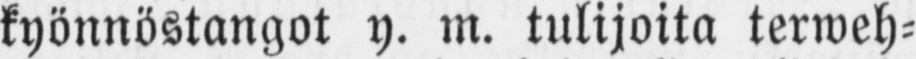kyönnöstangot y. m. tulijoita terweh-
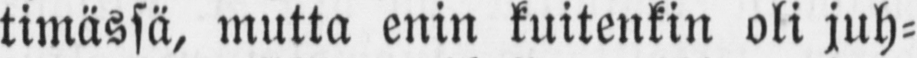timässä, mutta enin kuitenkin oli juh-
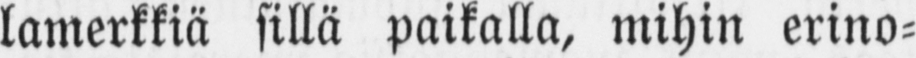lamerkkiä sillä paikalla, mihin erino-
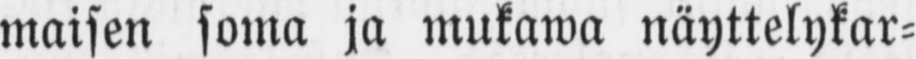maisen soma ja mukawa näyttelykar-
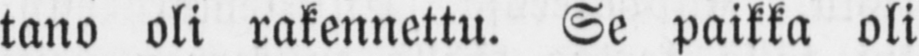tano oli rakennettu. Se paikka oli
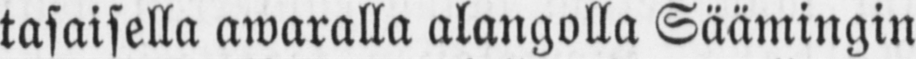tasaisella awaralla alangolla Säämingin
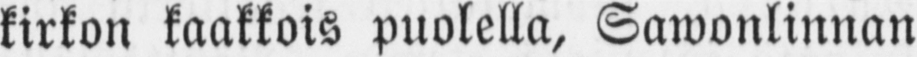kirkon kaakkois puolella, Sawonlinnan
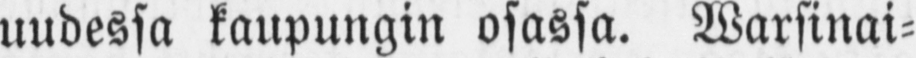uudessa kaupungin osassa. Warsinai-
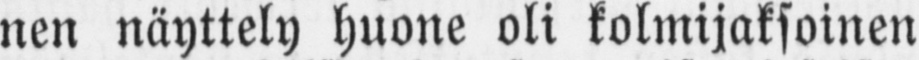nen näyttely huone oli kolmijaksoinen
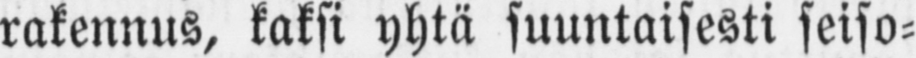rakennus, kaksi yhtä suuntaisesti seiso-
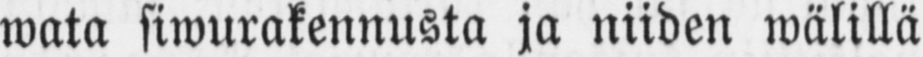wata siwurakennusta ja niiden wälillä
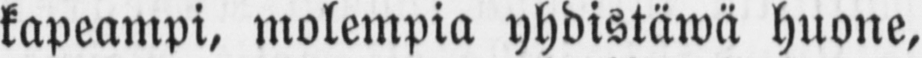kapeampi, molempia yhdistäwä huone,
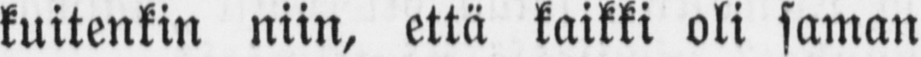kuitenkin niin, että kaikki oli saman
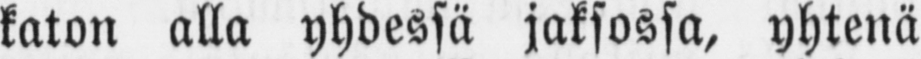katon alla yhdessä jaksossa, yhtenä
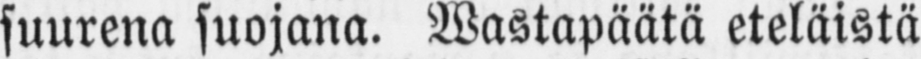suurena suojana. Wastapäätä eteläistä
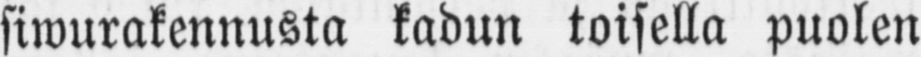siwurakennusta kadun toisella puolen
